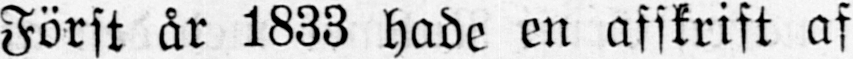Först år 1833 hade en afskrift af
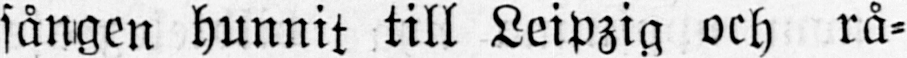sången hunnit till Leipzig och rå-
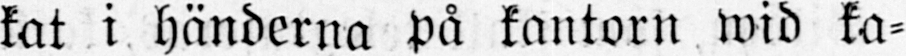kat i händerna på kantorn wid ka-
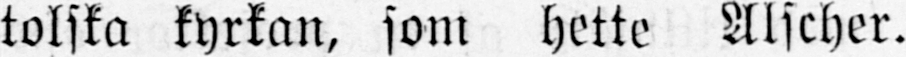tolska kyrkan, som hette Alscher.
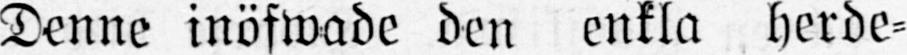Denne inöfwade den enkla herde-
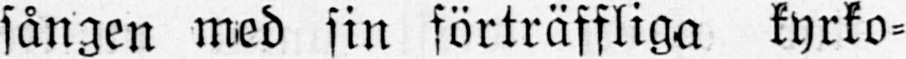sången med sin förträffliga kyrko-
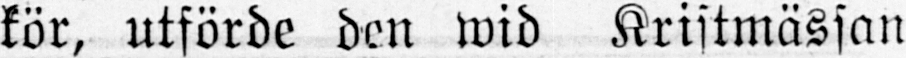kör, utförde den wid Kristmässan
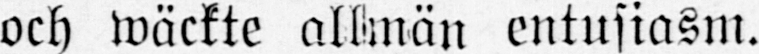och wäckte allmän entusiasm.
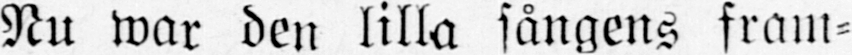Nu war den lilla sångens fram-
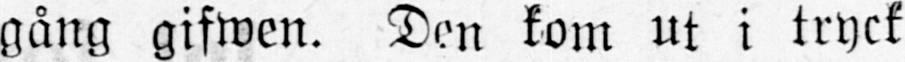gång gifwen. Den kom ut i tryck
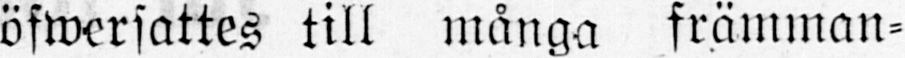öfwersattes till många främman-
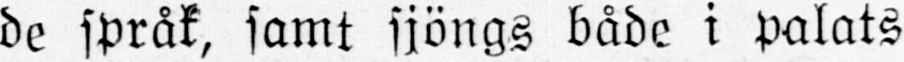de språk, samt sjöngs både i palats
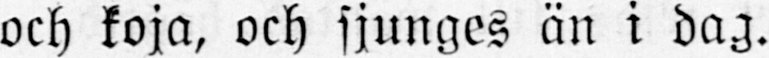och koja, och sjunges än i dag.
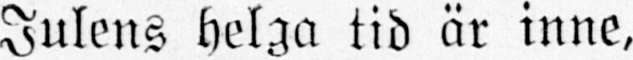Julens helga tid är inne,
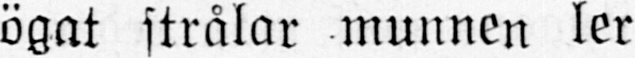ögat strålar munnen ler
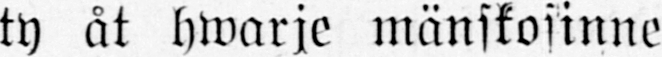ty åt hwarje mänskosinne
